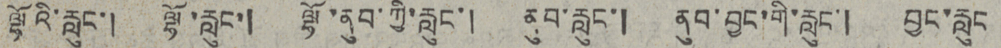ལྷོའི་རླུང་། ལྷོ་རླུང་། ལྷོ་ནུབ་ཀྱི་རླུང་། ནུབ་རླུང་། ནུབ་བྱང་གི་རླུང་། བྱང་རླུང
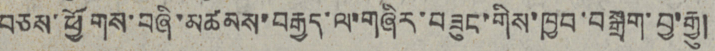བཅས་ཕྱོགས་བཞི་མཚམས་བརྒྱད་ལ་གཞིར་བཟུང་གིས་ཁྱབ་བསྒྲག་བྱ་རྒྱུ།
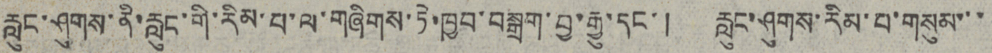རླུང་ཤུགས་ནི་རླུང་གི་རིམ་པ་ལ་གཞིགས་ཏེ་ཁྱབ་བསྒྲག་བྱ་རྒྱུ་དང་། རླུང་ཤུགས་རིམ་པ་གསུམ་་་
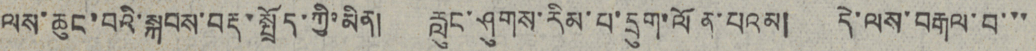ས་ཆུང་བའི་སྐབས་བརྡ་སྤྲོད་ཀྱི་མིན། རླུང་ཤུགས་རིམ་པ་དྲུག་ལོན་པའམ། དེ་ལས་བརྒལ་བ་་་
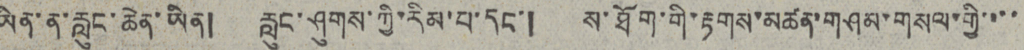ཡིན་ན་རླུང་ཆེན་ཡིན། རླུང་ཤུགས་ཀྱི་རིམ་པ་དང་། ས་ཐོག་གི་རྟགས་མཚན་གཤམ་གསལ་གྱི་་་་
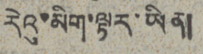རེའུ་མིག་ལྟར་ཡིན།
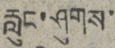རླུང་ཤུགས་
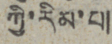ཀྱི་རིམ་པ།
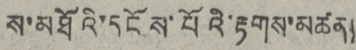ས་མཐོའི་དངོས་པོའི་རྟགས་མཚན།
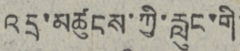འདྲ་མཚུངས་ཀྱི་རླུང་གི་
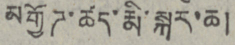མགྱོཌ་ཚད་རྨི་སྐར་ཆ།
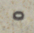༠
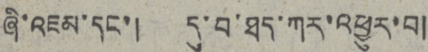ཞི་འཇམ་དང་།   དུ་བ་ཐད་ཀར་འཕྱུར་བ།
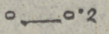༠—༠.༢
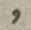༡
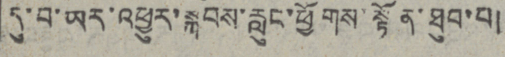དུ་བ་ཡར་འཕྱུར་སྐབས་རླུང་ཕྱོགས་སྟོན་ཐུབ་པ།
